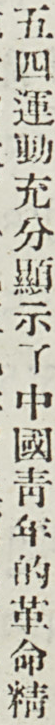五四運動充分顯示了中國靑年的革命精
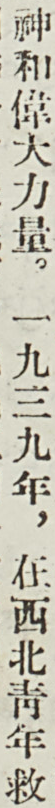神和偉大力量。一九三九年，在西北靑年救
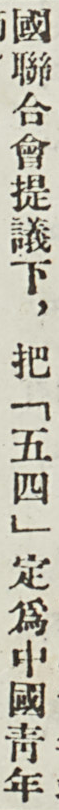國聯合會提議下，把「五四」定爲中國靑年
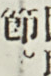節。
